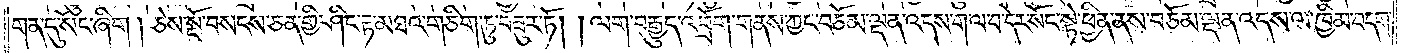གན་དུ་སོང་ཞིག །ཅེས་སྔོ་བསངས་ཅན་གྱི་ཤིང་རྟ་མཐའ་གཅིག་ཏུ་བཟུར་ཏོ། །ལག་བརྒྱུད་འབྲོག་གནས་ཀྱང་བཅོམ་ལྡན་འདས་ག་ལ་བ་དེར་སོང་སྟེ་ཕྱིན་ནས་བཅོམ་ལྡན་འདས་ལ་ཁྱིམ་བདག་
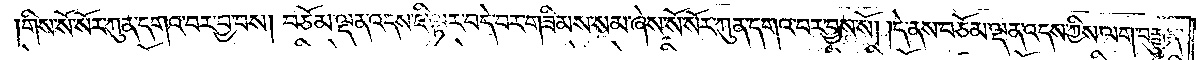གིས་སོ་སོར་ཀུན་དགའ་བར་བྱ་བས། བཅོམ་ལྡན་འདས་ཇི་ལྟར་བདེ་བར་གཟིམས་སམ་ཞེས་སོ་སོར་ཀུན་དགའ་བར་བྱས་སོ། །དེ་ནས་བཅོམ་ལྡན་འདས་ཀྱིས་ལག་བརྒྱུད་
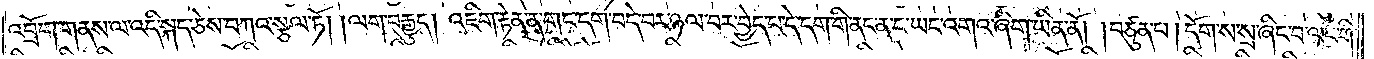འབྲོག་གནས་ལ་འདི་སྐད་ཅེས་བཀའ་སྩལ་ཏོ། །ལག་བརྒྱུད། འཇིག་རྟེན་ན་གང་དག་བདེ་བར་ཉལ་བར་བྱེད་པ་དེ་དག་གི་ནང་ན་ང་ཡང་འགའ་ཞིག་ཡིན་ནོ། །བཙུན་པ། དོག་ས་སྲ་ཞིང་བ་ལང་གི་
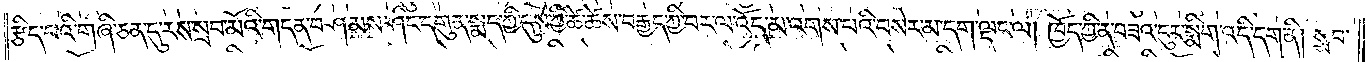རྩིད་པའི་གཞི་ཅན་དུ་རས་སྲབ་མོའི་གདན་བཤམས་ཤིང་དགུན་སྨད་ཀྱི་དུས་ཀྱི་ཚེ་ཚེས་བརྒྱད་ཀྱི་བར་ལ་འོད་མ་འགས་པའི་བསེར་མ་དག་ལྡང་ལ། ཁྱོད་ཀྱི་ན་བཟའ་ངུར་སྨིག་འདི་དག་ནི། སྲབ་
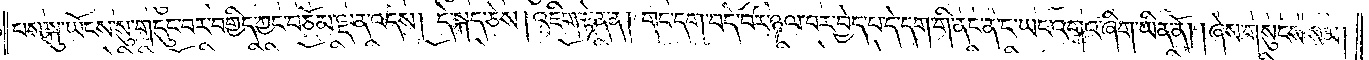པས་སྐུ་ཡོངས་སུ་གདུང་བར་བགྱིད་ཀྱང་བཅོམ་ལྡན་འདས། དེ་སྐད་ཅེས། འཇིག་རྟེན་ན། གང་དག་བདེ་བར་ཉལ་བར་བྱེད་པ་དེ་དག་གི་ནང་ན་ང་ཡང་འགའ་ཞིག་ཡིན་ནོ། །ཞེས་གསུངས་སམ།
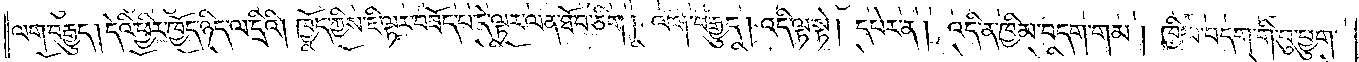ལག་བརྒྱུད། དེའི་ཕྱིར་ཁྱོད་ཉིད་ལ་དྲིའི། ཁྱོད་ཀྱིས་ཇི་ལྟར་བཟོད་པ་དེ་ལྟར་ལན་ཐོབ་ཅིག །ལག་བརྒྱུད། འདི་ལྟ་སྟེ། དཔེར་ན། འདི་ན་ཁྱིམ་བདག་གམ། ཁྱིམ་བདག་གི་བུ་ཕྱུག་
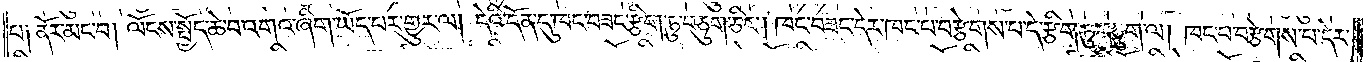པ༑ ནོར་མང་བ། ལོངས་སྤྱོད་ཆེ་བ་འགའ་ཞིག་ཡོད་པར་གྱུར་ལ། དེའི་དོན་དུ་ཁང་བཟང་རྩིག་ཏུ་བཅུག་ཅིང༌། ཁང་བཟང་དེར་ཁང་པ་བརྩེགས་པ་དེ་རྩིག་ཏུ་བཅུག་ལ། ཁང་པ་བརྩེགས་པ་དེར་
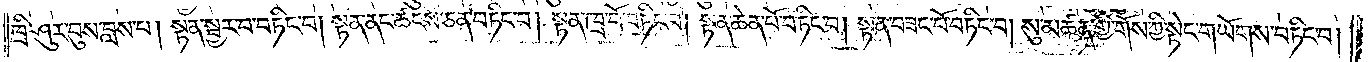ཁྲི་ཤུར་བུས་བླས་པ། སྟན་སྦྱར་བ་བཏིང་བ། སྟན་ནང་ཚངས་ཅན་བཏིང་བ། སྟན་ཁྲ་བོ་བཏིང་བ། སྟན་ཆེན་པོ་བཏིང་བ། སྟན་བཟང་པོ་བཏིང་བ། སུ་མཚན་གྱི་གོས་ཀྱི་སྟེང་གཡོགས་བཏིང་བ།
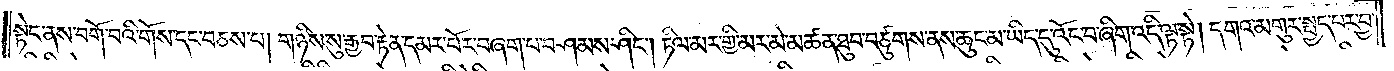སྟེང་ནས་བགོ་བའི་གོས་དང་བཅས་པ། གཉིས་སུ་རྒྱབ་རྟེན་དམར་པོར་བཞག་པ་བཤམས་ཤིང༌། ཏིལ་མར་གྱི་མར་མེ་མཚན་ཐུབ་བཙུགས་ནས་ཆུང་མ་ཡིད་དུ་འོང་བ་ཞིག་འདི་ལྟ་སྟེ། དགའ་མགུར་སྤྱད་པར་བྱ་
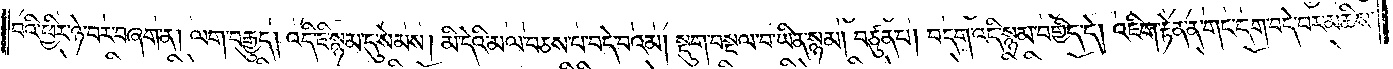པའི་ཕྱིར་ཉེ་བར་བཞག་ན། ལག་བརྒྱུད། འདི་ཇི་སྙམ་དུ་སེམས། མི་དེའི་མལ་བཅས་པ་བདེ་བའམ། སྡུག་བསྔལ་བ་ཡིན་སྙམ། བཙུན་པ། བདག་འདི་སྙམ་བགྱིད་དེ། འཇིག་རྟེན་ན་གང་དག་བདེ་བར་མཆིས་
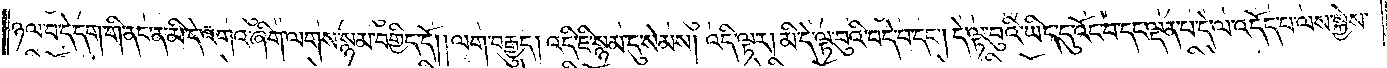ཉལ་བ་དེ་དག་གི་ནང་ན་མི་དེ་འགའ་ཞིག་ལགས་སྙམ་བགྱིད་དོ། །ལག་བརྒྱུད། འདི་ཇི་སྙམ་དུ་སེམས། འདི་ལྟར། མི་དེ་ལྟ་བུའི་བདེ་བ་དང༌། དེ་ལྟ་བུའི་ཡིད་དུ་འོང་བ་དང་ལྡན་པ་དེ་ལ་འདོད་པ་ལས་སྐྱེས་
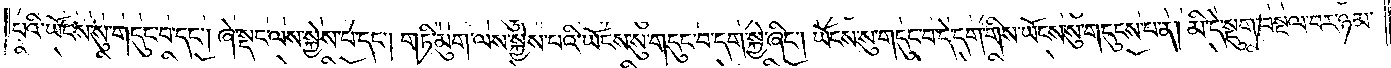པའི་ཡོངས་སུ་གདུང་བ་དང༌། ཞེ་སྡང་ལས་སྐྱེས་པ་དང༌། གཏི་མུག་ལས་སྐྱེས་པའི་ཡོངས་སུ་གདུང་བ་དག་སྐྱེ་ཞིང༌། ཡོངས་སུ་གདུང་བ་དེ་དག་གིས་ཡོངས་སུ་གདུངས་པ་ན། མི་དེ་སྡུག་བསྔལ་བར་ཉམ་
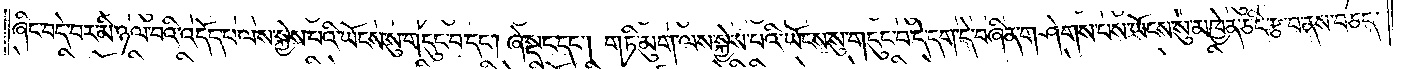ཞིང་བདེ་བར་མི་ཉལ་བའི་འདོད་པ་ལས་སྐྱེས་པའི་ཡོངས་སུ་གདུང་བ་དང༌། ཞེ་སྡང་དང༌། གཏི་མུག་ལས་སྐྱེས་པའི་ཡོངས་སུ་གདུང་བ་དེ་དག་དེ་བཞིན་གཤེགས་པས་ཡོངས་སུ་མཁྱེན་ཅིང་རྩ་བ་ནས་བཅད་
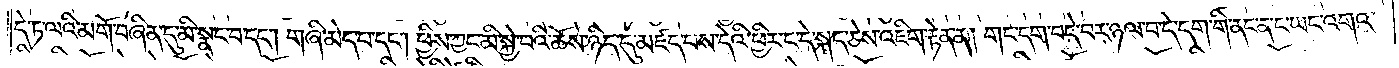དེ་ཏ་ལའི་མགོ་བཞིན་དུ་མི་སྣང་བ་དང༌། གཞི་མེད་པ་དང༌། ཕྱིས་ཀྱང་མི་སྐྱེ་བའི་ཆོས་ཉིད་དུ་མཛད་པས་དེའི་ཕྱིར་ང་དེ་སྐད་ཅེས་འཇིག་རྟེན་ན། གང་དག་བདེ་བར་ཉལ་བ་དེ་དག་གི་ནང་ན་ང་ཡང་འགའ་
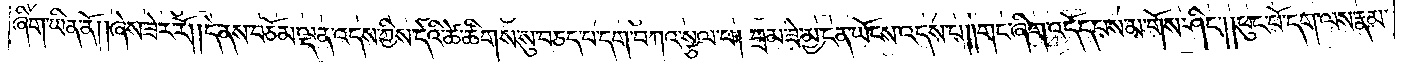ཞིག་ཡིན་ནོ། །ཞེས་ཟེར་རོ། །དེ་ནས་བཅོམ་ལྡན་འདས་ཀྱིས་དེའི་ཚེ་ཚིགས་སུ་བཅད་པ་དག་བཀའ་སྩལ་པ། བྲམ་ཟེ་མྱ་ངན་ཡོངས་འདས་པ། །གང་ཞིག་འདོད་པས་མ་གོས་ཤིང༌། །ཕུང་པོ་དག་ལས་རྣམ་
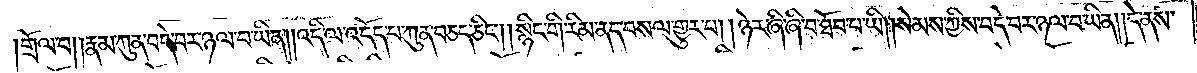གྲོལ་བ། །རྣམ་ཀུན་བདེ་བར་ཉལ་བ་ཡིན། །འདི་ལ་འདོད་པ་ཀུན་བཅད་ཅིང༌། །སྙིང་གི་རིམ་ནད་བསལ་གྱུར་བ། །ཉེར་ཞི་ཞི་བ་ཐོབ་པ་ཡི། །སེམས་ཀྱིས་བདེ་བར་ཉལ་བ་ཡིན། །དེ་ནས་
